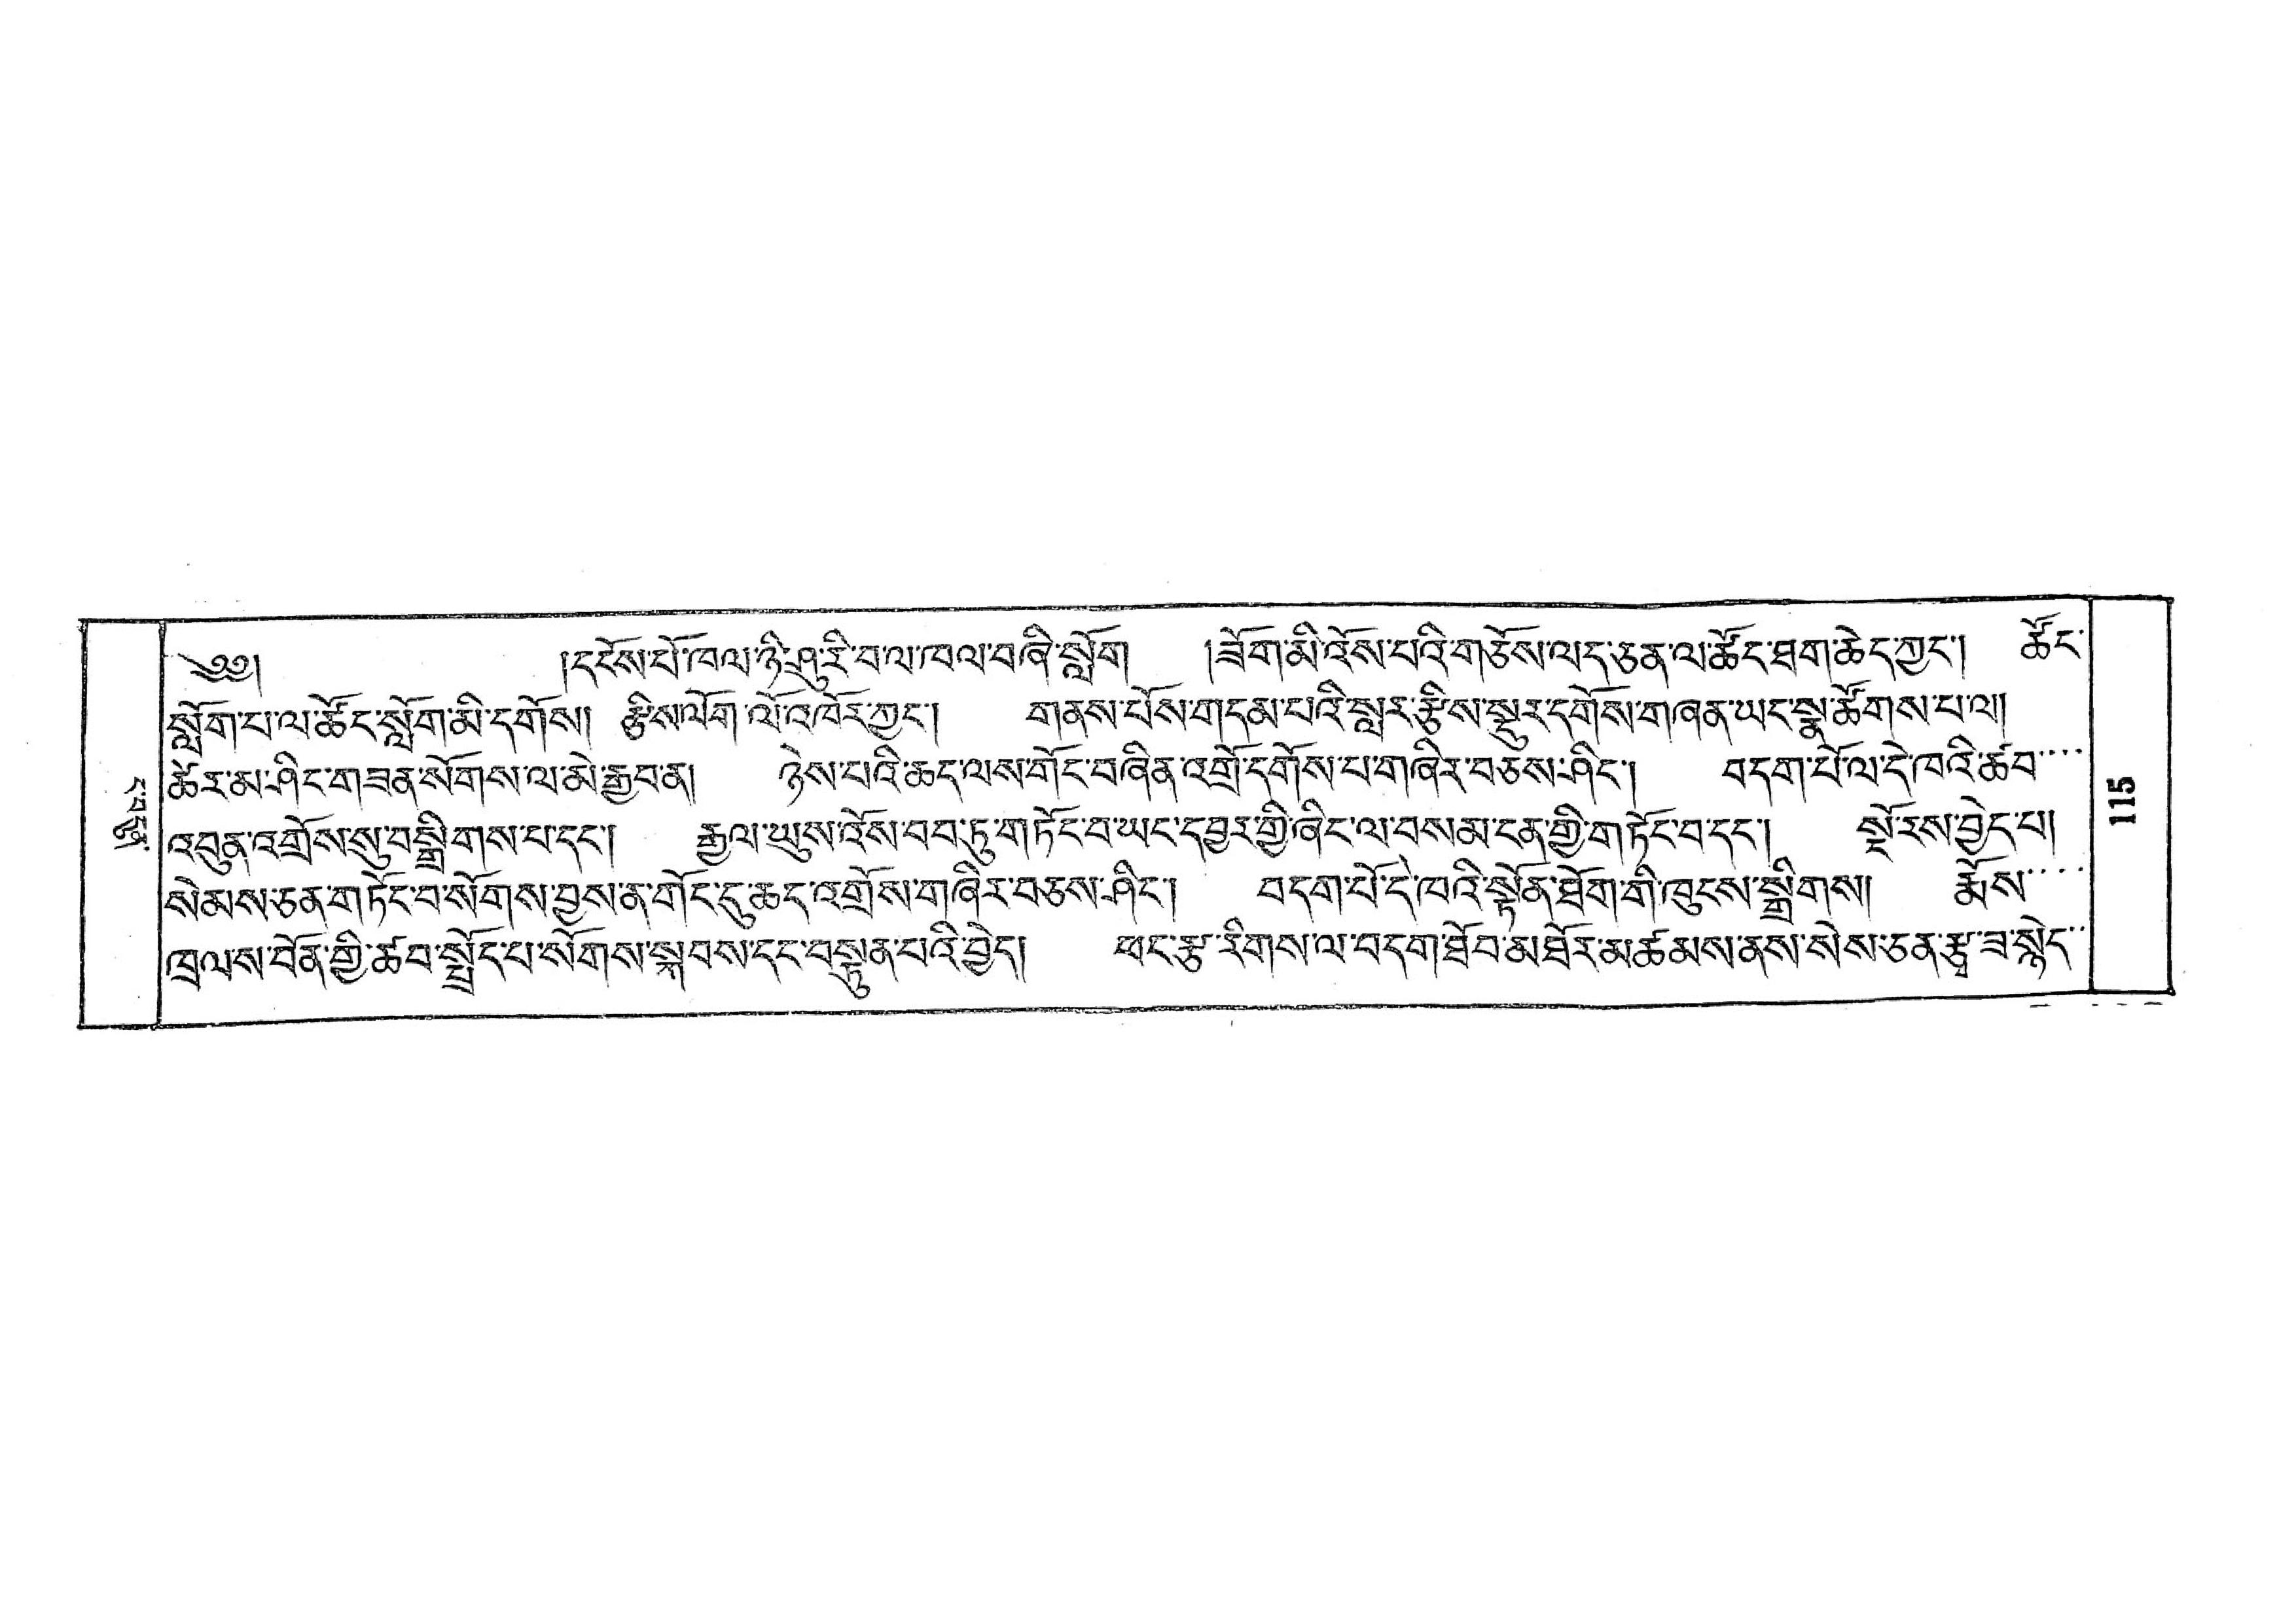ང་བདུན་
༄༅།  །དངོས་པོ་ཁལ་ཉི་ཤུ་རི་བ་ལ་ཁལ་བཞི་སློག །ཟོག་མི་འོས་པའི་གཅོས་ལད་ཅན་ལ་ཚོང་ཐག་ཆེད་ཀྱང་། ཚོང་
སློག་པ་ལ་ཚོང་སློག་མི་དགོས། རྩིས་ལོག་ལོ་འཁོར་ཀྱང་། གནས་པོས་གདམ་པའི་སླར་རྩིས་སྡུར་དགོས་གཞན་ཡང་སྣ་ཚོགས་པ་ལ།
ཚེར་མ་ཤིང་གཟན་སོགས་ལ་མེ་རྒྱབ་ན། ཉེས་པའི་ཆད་ལས་གོང་བཞིན་འགྲོ་དགོས་པ་གཞིར་བཅས་ཤིང་། བདག་པོ་ལ་དེ་ཁའི་ཚབ་་་་
འབུན་འགྲོས་སུ་བསྒྲིགས་པ་དང་། རྒྱལ་ཡུས་འོས་བབ་ཏུ་གཏོང་བ་ཡང་དབྱར་གྱི་ཞིང་ལ་བསམ་ངན་གྱི་གཏོང་བ་དང་། སྔོ་རས་བྱེད་པ།
སེམས་ཅན་གཏོང་བ་སོགས་བྱས་ན་གོང་དུ་ཆད་འགྲོས་གཞིར་བཅས་ཤིང་། བདག་པོ་དེ་ཁའི་སྟོན་ཐོག་གི་ཁུངས་སྒྲིགས། རྨོས་་་་
ཁྲལ་ས་བོན་གྱི་ཚབ་སྤྲོད་པ་སོགས་སྐབས་དང་བསྟུན་པའི་བྱེད། ཕང་རྩ་རིགས་ལ་བདག་ཐོབ་མཐོར་མཚམས་ནས་སེས་ཅན་རྩྭ་ཟ་སྙེད་་
